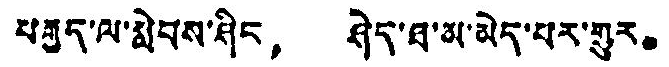བརྒྱད་ལ་སླེབས་ཤིང， ཤེད་ཐ་མ་མེད་པར་གྱུར。
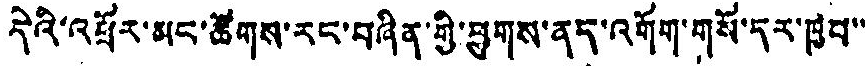དེའི་འཕྲོར་མང་ཚོགས་རང་བཞིན་གྱི་ཕྱུགས་ནད་འགོག་གསོ་དར་ཁྱབ་་
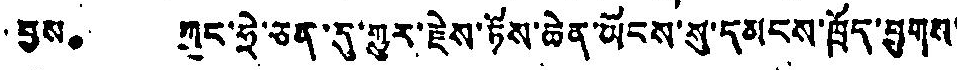བྱས。 ཀུང་ཧྲེ་ཅན་དུ་གྱུར་རྗེས་ཏོས་ཆེན་ཡོངས་སུ་དམངས་ཁྲོད་ཕྱུགས་
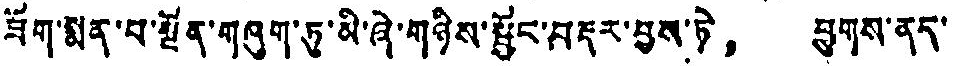ཟོག་སྨན་པ་སྔོན་གཞུག་ཏུ་མི་ཞེ་གཉིས་སྦྱོང་བརྡར་བྱས་ཏེ， ཕྱུགས་ནད་
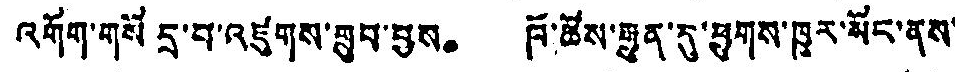འགོག་གསོ དྲ་བ་འཛུགས་གྲུབ་བྱས。 ཁོ་ཚོས་རྒྱུན་དུ་ཕྱུགས་ཁུར་སོང་ནས་
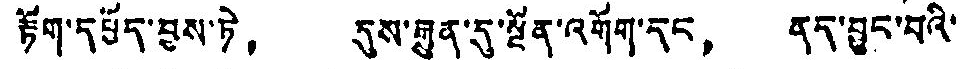རྟོག་དཔྱོད་བྱས་ཏེ， དུས་རྒྱུན་དུ་སྔོན་འགོག་དང， ནད་བྱུང་བའི་
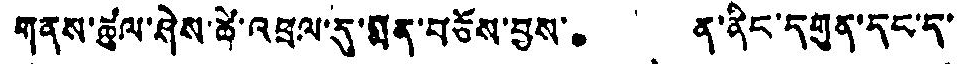གནས་ཚུལ་ཤེས་ཚེ་འཕྲལ་དུ་སྨན་བཅོས་བྱས。 ན་ནིང་དགུན་དང་དུ་
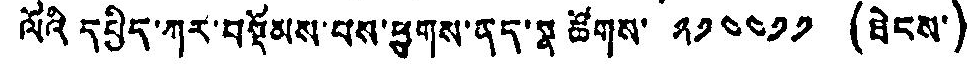ལོའི དཔྱིད་ཀར་བསྡོམས་པས་ཕྱུགས་ནད་སྣ ཚོགས་ ༢༡༤༤༡༡ (ཐེངས་)
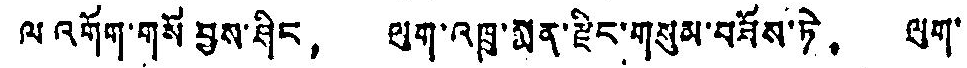ལ འགོག་གསོ བྱས་ཤིང， ལུག་འཁྲུ་མྨན་རྫིང་གསུམ་བཟོས་ཏེ， ལུག་
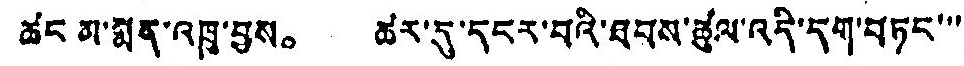ཚང མ་སྨན་འཁྲུ་བྱས。 ཚར་དུ་དངར་བའི་ཐབས་ཚུལ་འདི་དག་བཏང་་་
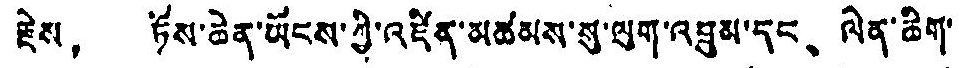རྗེས， ཏོས་ཆེན་ཡོངས་ཀྱི་འཛིན་མཚམས་སུ་ལུག་འཐུམ་དང、 ལེན་ཆིག་
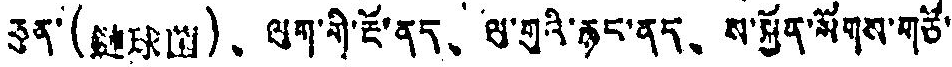ཅུན་(鏈球菌)、 ལུག་གི་རྔོ་ནད、 ལུ་གུའི་རྙང་ནད、 ས་སྐྱོན་སོགས་གཙོ་་
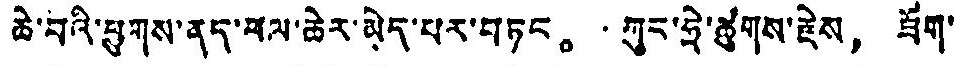ཆེ་བའི་ཕྱུགས་ནད་ཕལ་ཆེར་མེད་པར་བཏང。 ཀུང་ཧྲེ་ཚུགས་རྗེས， ཟོག་
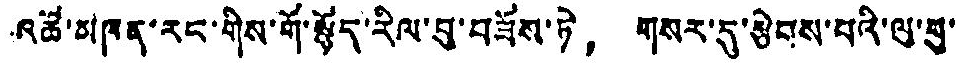འཚོ་མཁན་རང་གིས་གོ་སྙོད་རིལ་བུ་བཟོས་ཏེ， གསར་དུ་རྩེབས་པའི་ལུ་སུ་
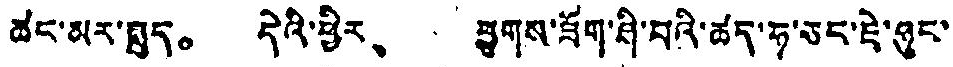ཚང་མར་ཐུད。 དེའི་ཕྱིར、 ཕྱུགས་ཟོག་ཤི་བའི་ཚད་ཧ་ཅང་ཇེ་ཉུང་
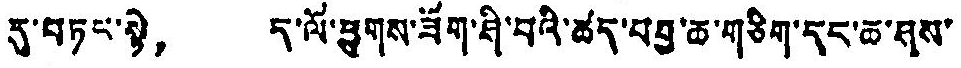དུ་བཏང་སྟེ， ད་ལོ་ཕྱུགས་ཟོག་ཤི་བའི་ཚད་བབྱ་ཆ་གཅིག་དང་ཆ་ཤས་
